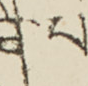ནཻ་པ་
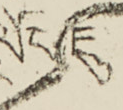ལོང་ཇུ་
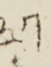༣༡
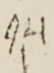༡༥
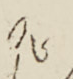༡༦
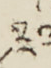༣༣
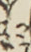༢༢
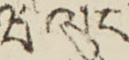ཝ་ལུང་
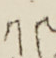༡༩
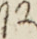༡༢
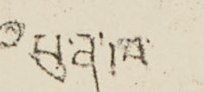པུ་ན་ཁ་
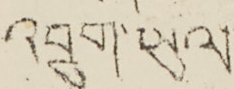འབྲུག་ཡུལ་
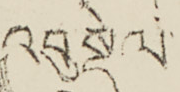འབུ སྡེལ་
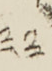༣༣
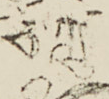ཅ་ཀླུ་
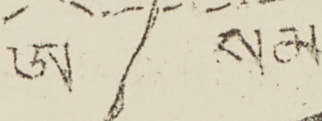ཨ་ སམ་
